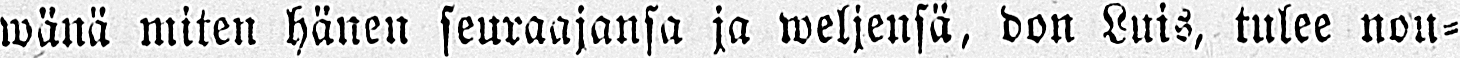wänä miten hänen seuraajansa ja weljensä, don Luis, tulee nou-
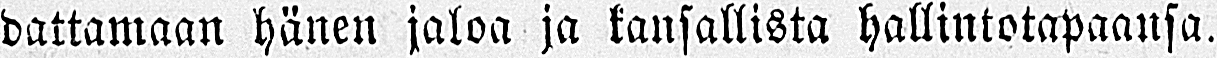dattamaan hänen jaloa ja kansallista hallintotapaansa.
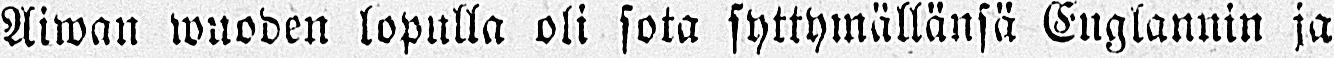Aiwan wuoden lopulla oli sota syttymällänsä Englannin ja
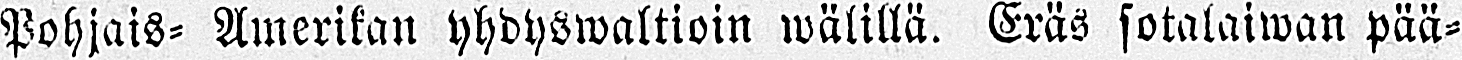Pohjais- Amerikan yhdyswaltioin wälillä. Eräs sotalaiwan pää-
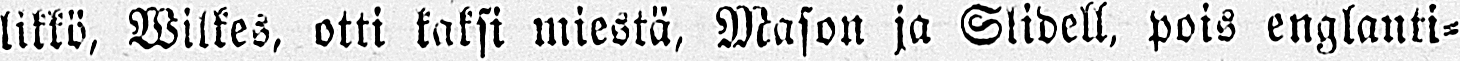likkö, Wilkes, otti kaksi miestä, Mason ja Slidell, pois englanti-
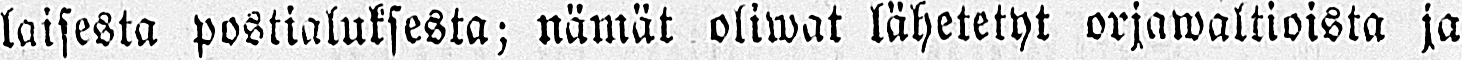laisesta postialuksesta; nämät oliwat lähetetyt orjawaltioista ja
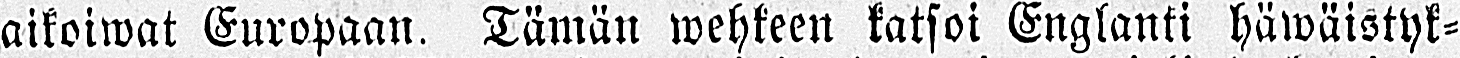aikoiwat Europaan. Tämän wehkeen katsoi Englanti häwäistyk-
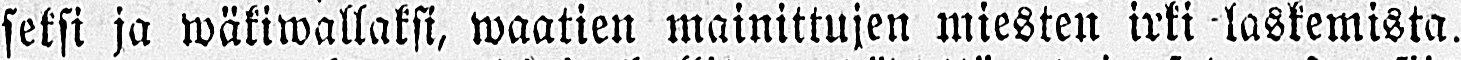seksi ja wäkiwallaksi, waatien mainittujen miesten irki laskemista.
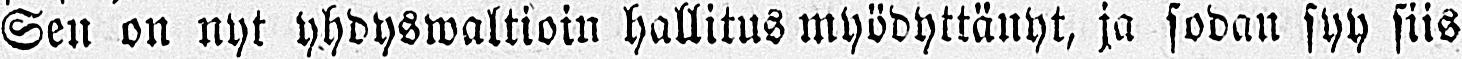Sen on nyt yhdyswaltioin hallitus myödyttänyt, ja sodan syy siis
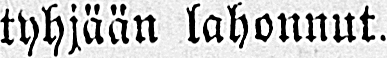tyhjään lahonnut.
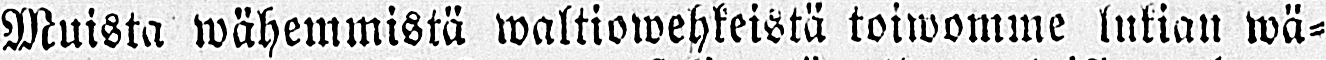Muista wähemmistä waltiowehkeistä toiwomme lukian wä-
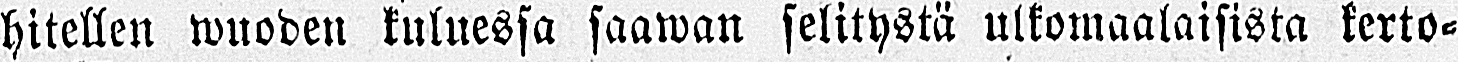hitellen wuoden kuluessa saawan selitystä ulkomaalaisista kerto-
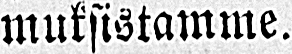muksistamme.
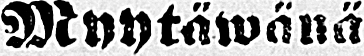Myytäwanä.
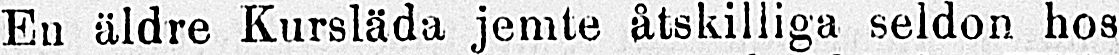En äldre Kursläda jemte åtskilliga seldon hos
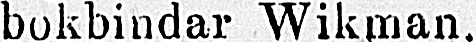bokbindar Wikman.
